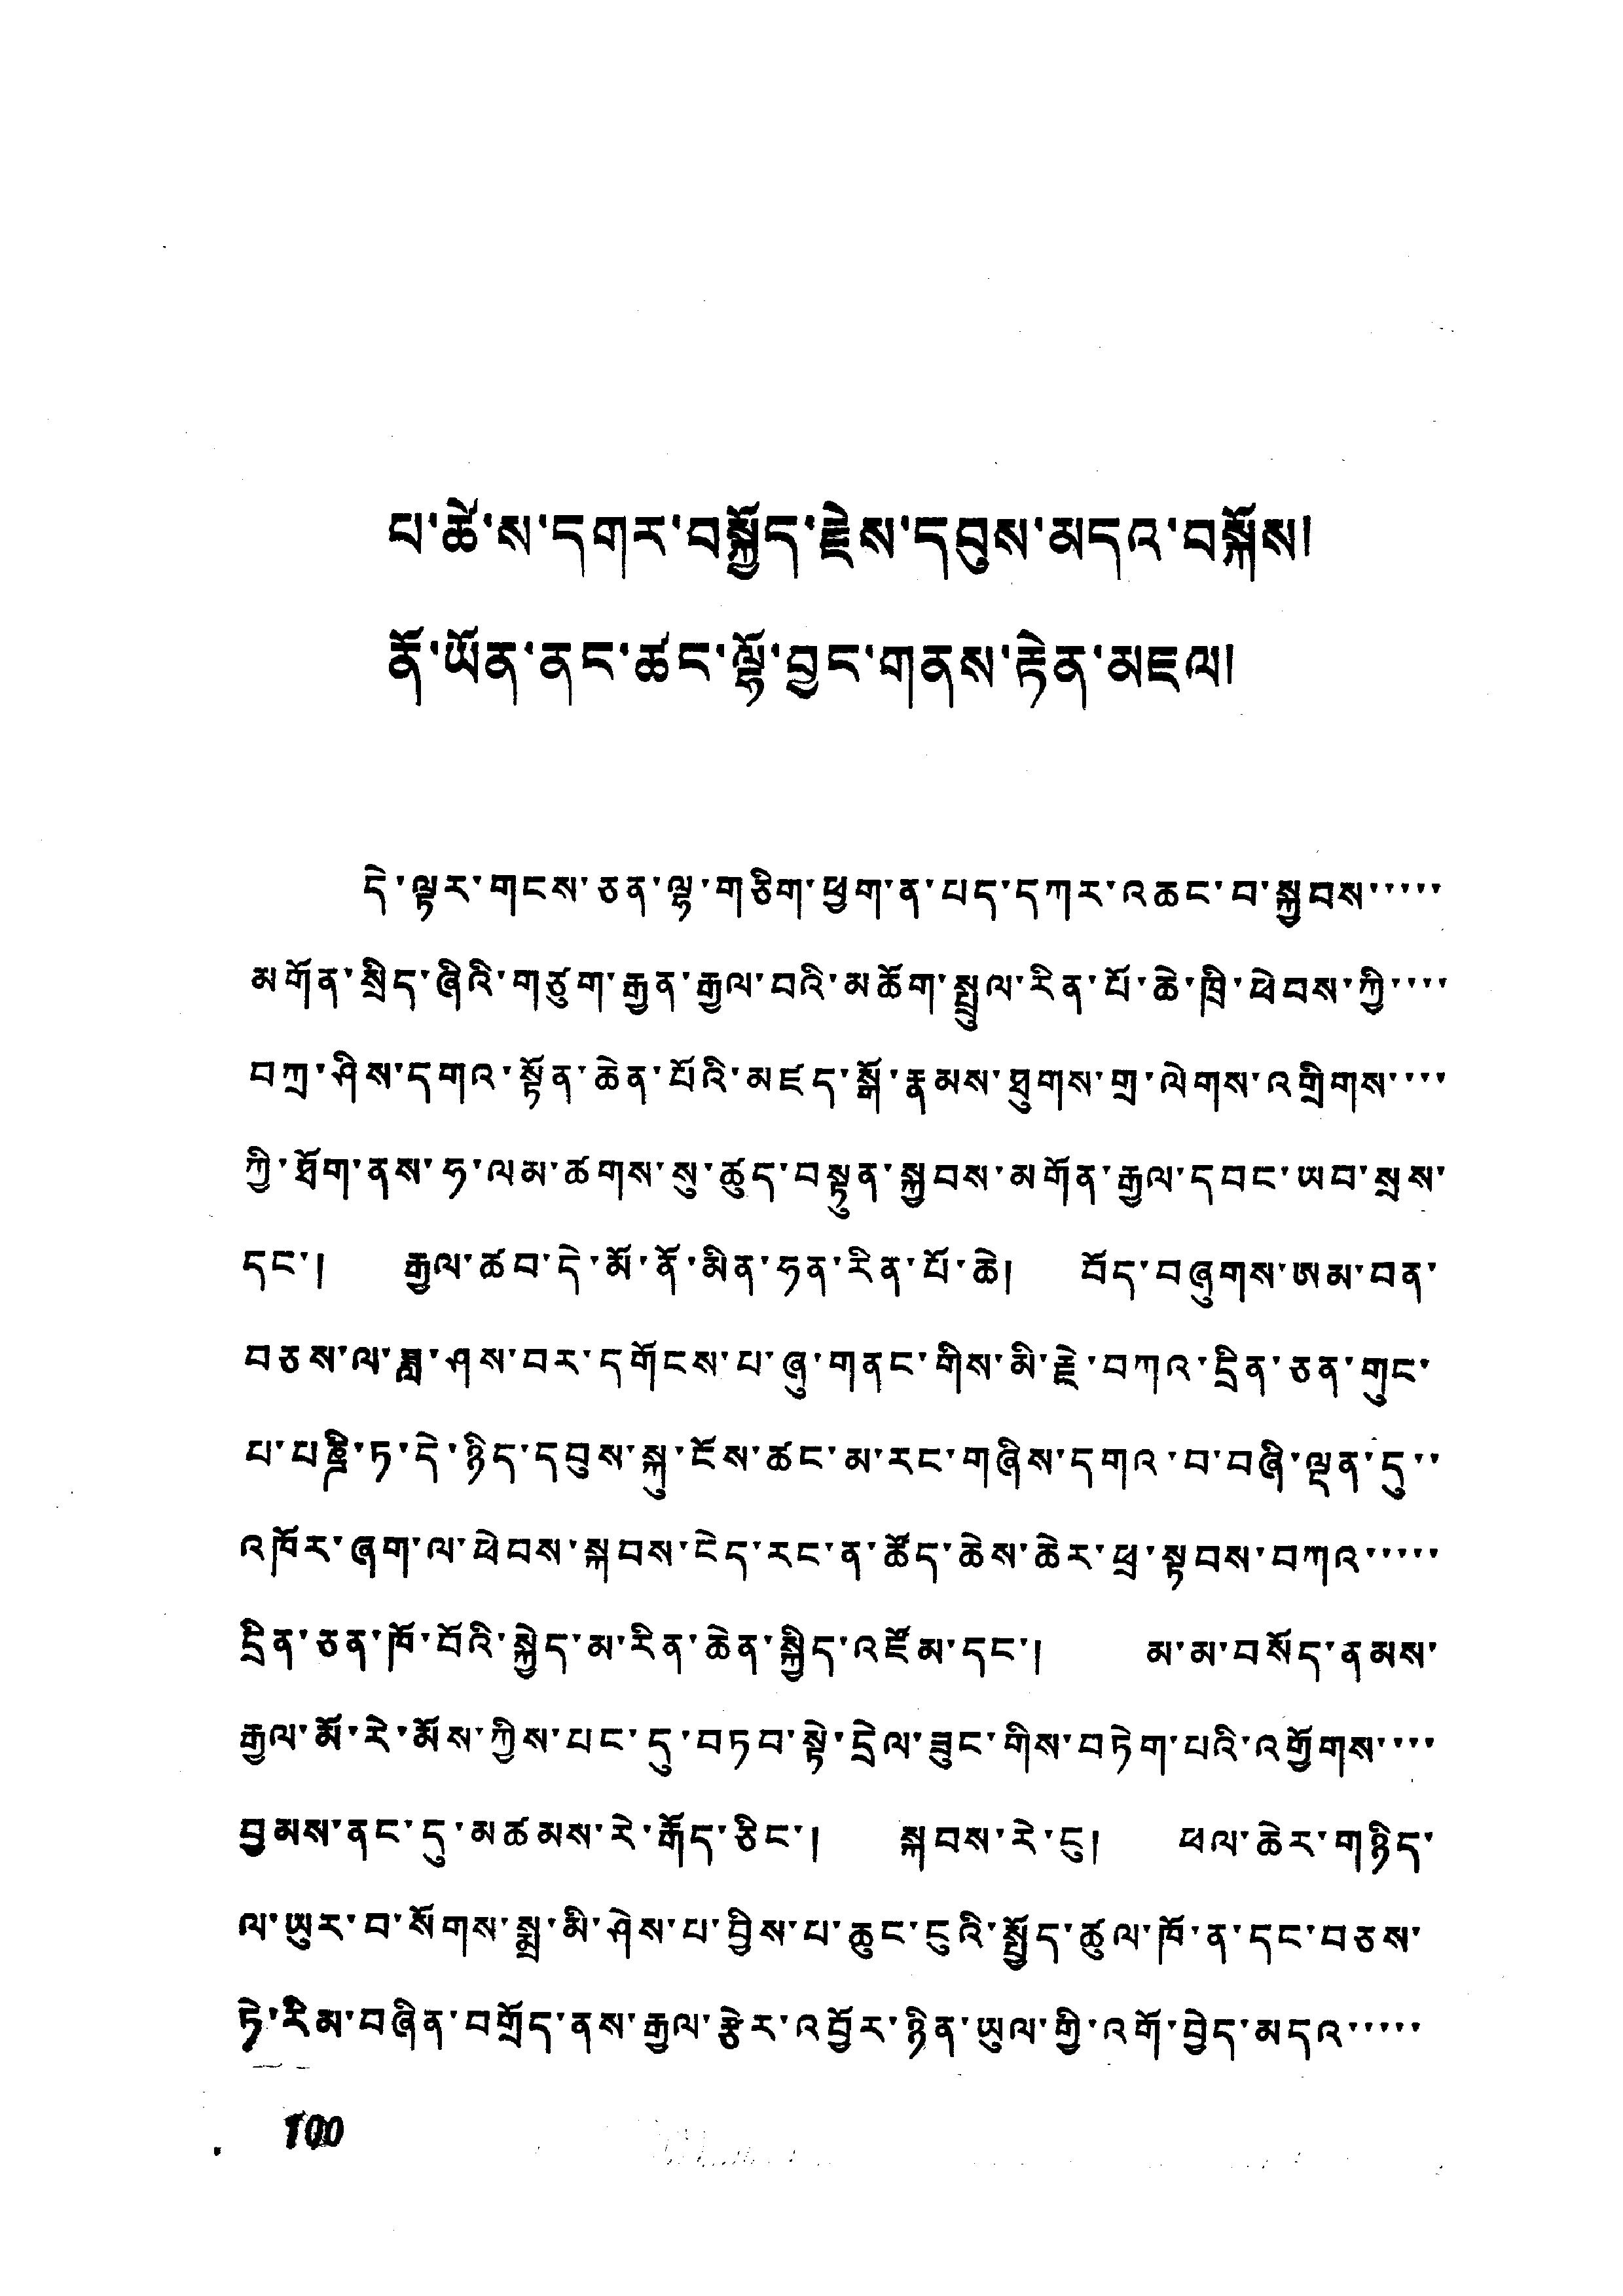པ་ཚེ་ས་དགར་བསྐྱོད་རྗེས་དབུས་མདའ་བསྐོས།
ནོ་ཡོན་ནང་ཚང་ལྷོ་བྱང་གནས་རྟེན་མཇལ།
དེ་ལྟར་གངས་ཅན་ལྷ་གཅིག་ཕྱག་ན་པད་དཀར་འཆང་བ་སྐྱབས་་་་་
མགོན་སྲིད་ཞིའི་གཙུག་རྒྱན་རྒྱལ་བའི་མཆོག་སྤྲུལ་རིན་པོ་ཆེ་ཁྲི་ཕེབས་ཀྱི་་་་
བཀྲ་ཤིས་དགའ་སྟོན་ཆེན་པོའི་མཛད་སྒོ་རྣམས་ཐུགས་གྲ་ལེགས་འགྲིགས་་་་
ཀྱི་ཐོག་ནས་ཧ་ལམ་ཚགས་སུ་ཚུད་བསྟུན་སྐྱབས་མགོན་རྒྱལ་དབང་ཡབ་སྲས་
དང་། རྒྱལ་ཚབ་དེ་མོ་ནོ་མིན་ཧན་རིན་པོ་ཆེ། བོད་བཞུགས་ཨམ་བན་
བཅས་ལ་ཟླ་ཤས་བར་དགོངས་པ་ཞུ་གནང་གིས་མི་རྗེ་བཀའ་དྲིན་ཅན་གུང་
པ་པཎྜི་ཏ་དེ་ཉིད་དབུས་སྐུ་ངོས་ཚང་མ་རང་གཞིས་དགའ་བ་བཞི་ལྡ་ན་དུ་
་་་་འཁོར་ཞག་ལ་ཕེབས་སྐབས་ངེད་རང་ན་ཚོད་ཆེས་ཆེར་ཕྲ་སྟབས་བཀའ་
དྲིན་ཅན་ཁོ་བོའི་སྐྱེད་མ་རིན་ཆེན་སྐྱིད་འཛོམ་དང་། མ་མ་བསོད་ནམས་
རྒྱལ་མོ་རེ་མོས་ཀྱིས་པང་དུ་བཏབ་སྟེ་དྲེལ་ཟུང་གིས་བཏེག་པའི་འགྱོགས་་་་
བྱམས་ནང་དུ་མཚམས་རེ་རྒོད་ཅིང་། སྐབས་རེ་ངུ། ཕལ་ཆེར་གཉིད་
ལ་ཡུར་བ་སོགས་སྨྲ་མི་ཤེས་པ་བྱིས་པ་ཆུང་ངུའི་སྤྱོད་ཚུལ་ཁོ་ན་དང་བཅས་
ཏེ་རིམ་བཞིན་བགྲོད་ནས་རྒྱལ་རྩེར་འབྱོར་ཉིན་ཡུལ་གྱི་འགོ་བྱེད་མདའ་་་་་
100
